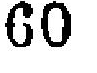60
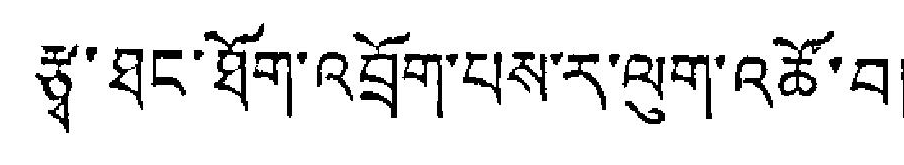རྩྭ་ཐང་ཐོག་འབྲོག་པས་ར་ལུག་འཚོ་བ།
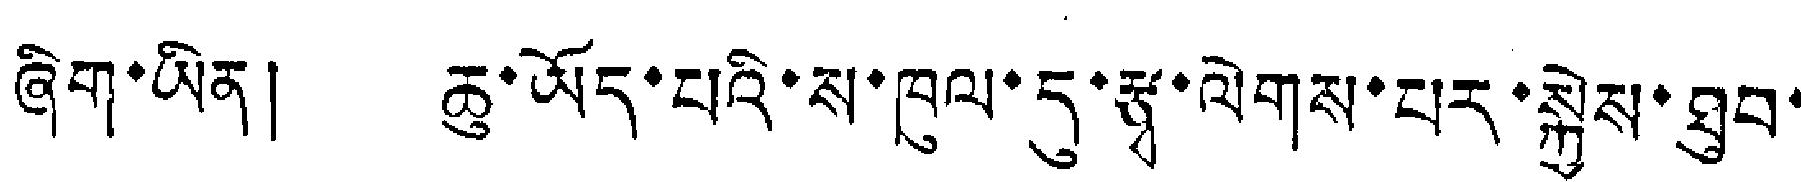ཞིག་ཡིན། ཆུ་ཡོད་པའི་ས་ཁུལ་དུ་རྩྭ་ལེགས་པར་སྐྱེས་ཐུབ་
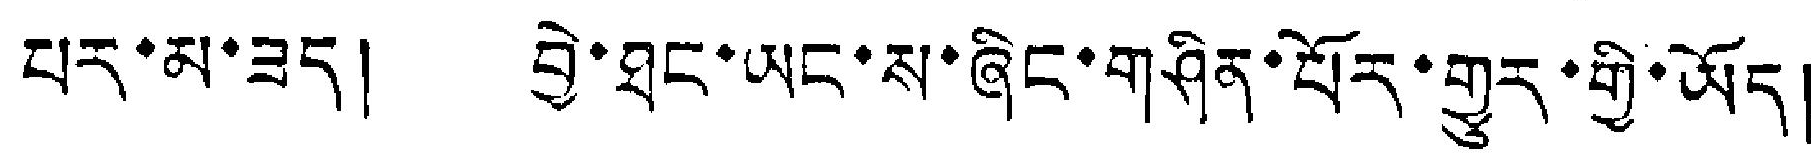པར་མ་ཟད། བྱེ་ཐང་ཡང་ས་ཞིང་གཤིན་པོར་གྱུར་གྱི་ཡོད།
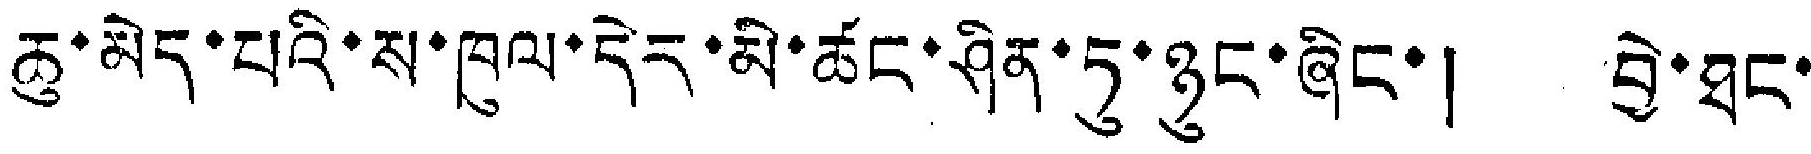ཆུ་མེད་པའི་ས་ཁུལ་དེར་མི་ཚང་ཤིན་ཏུ་ཉུང་ཞིང་། བྱེ་ཐང་
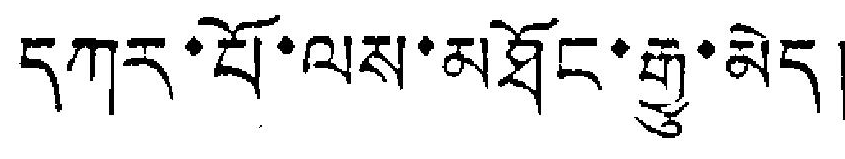དཀར་པོ་ལས་མཐོང་རྒྱུ་མེད།
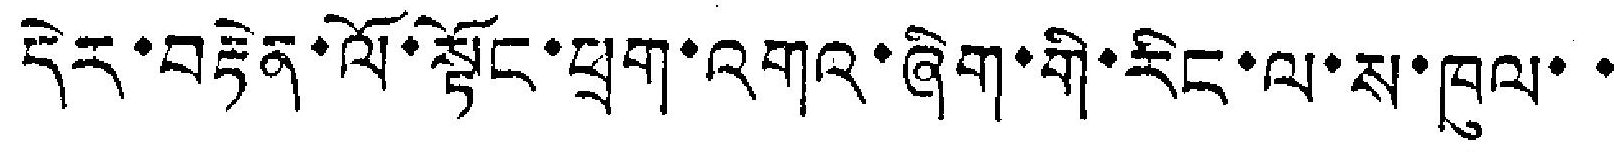དེར་བརྟེན་ལོ་སྟོང་ཕྲག་འགའ་ཞིག་གི་རིང་ལ་ས་ཁུལ་་
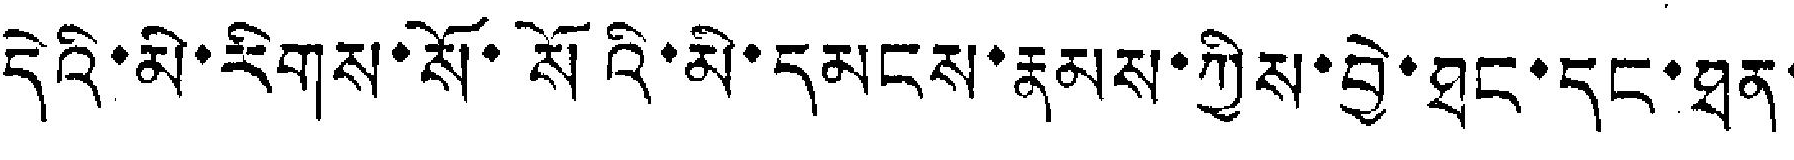དེའི་མི་རིགས་སོ་སོའི་མི་དམངས་རྣམས་ཀྱིས་བྱེ་ཐང་དང་ཐན་
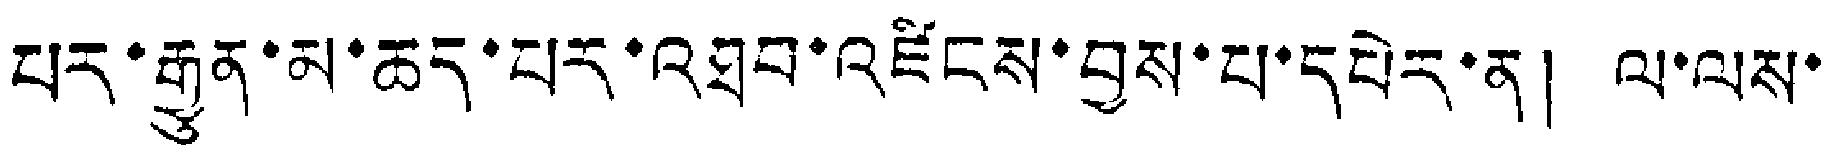པར་རྒྱུན་མ་ཆད་པར་འཐབ་འཛིངས་བྱས་པ་དཔེར་ན། ལ་ལས་
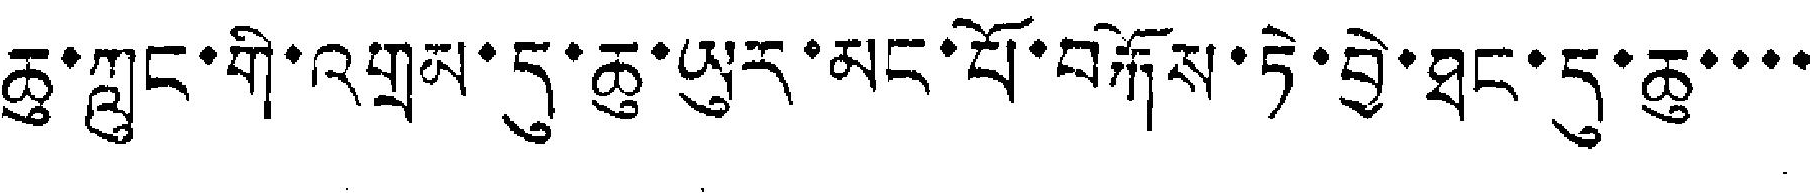ཆུ་ཀླུང་གི་འགྲམ་དུ་ཆུ་ཡུར་མང་པོ་བརྐོས་ཏེ་བྱེ་ཐང་དུ་ཆུ་་་་
